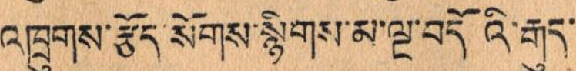འཁྲུགས་རྩོད་སོགས་སྙིགས་མ་ལྔ་བདོ འི་རྒུད་
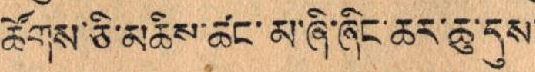ཚོགས་ཅི་མཆིས་ཚང་མ་ཞི་ཞིང་ཆར་ཆུ་དུས་
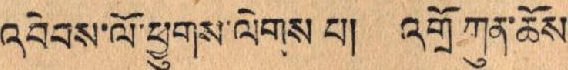འབེབས་ལོ་ཕྱུགས་ལེགས་པ། འགྲོ་ཀུན་ཆོས་
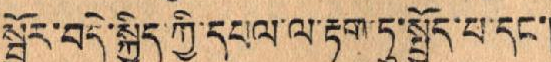སྦྱོར་བདེ་སྐྱིད་ཀྱི་དཔལ་ལ་རྟག་ཏུ་སྤྱོད་པ་དང་།
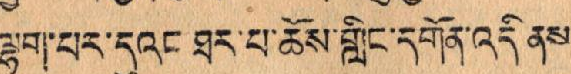ལྷག་པར་དུའང་ཐར་པ་ཆོས་གླིང་དགོན་འདི ནས་
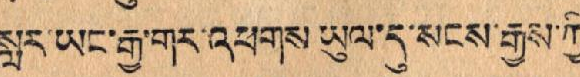སླར་ཡང་རྒྱ་གར་འཕགས་ཡུལ་དུ་སངས་རྒྱས་ཀྱི་
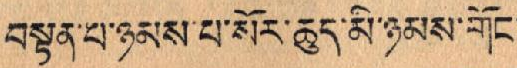བསྟན་པ་མཉམས་པ་སོར་ཆུད་མི་ཉམས་གོང་
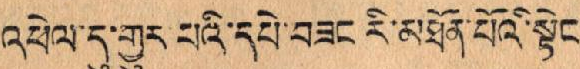འཕེལ་དུ་གྱུར་པའི་དཔེ་བཟང རི་མཐོན་པོའི་སྟེང་
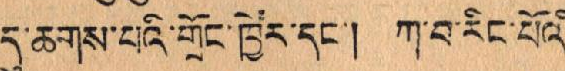དུ་ཆགས་པའི་གྲོང་ཁྱེར་དང་། ཀ་བ་རིང་པོའི་
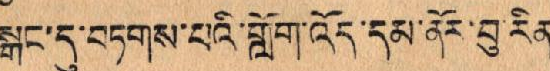སྒང་དུ་བཏགས་པའི་གློག་འོད་དམ་ནོར་བུ་རིན་
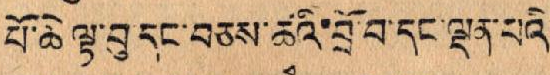པོ་ཆེ་ལྟ་བུ་དང་བཅས་ཚྭའི་བྲོ་བ་དང་ལྡན་པའི་
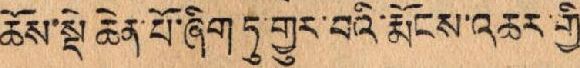ཆོས་སྡེ་ཆེན་པོ་ཞིག་ཏུ་གྱུར་བའི་རྨོངས་འཆར་གྱི་
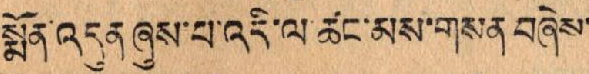སྨོན་འདུན་ཞུས་པ་འདི་ལ་ཚང་མས་གསན་བཞེས་
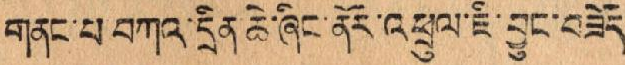གནང་པ་བཀའ་དྲིན་ཆེ་ཞིང་ནོར་འཕྲུལ་ཇི་བྱུང་བཟོད་
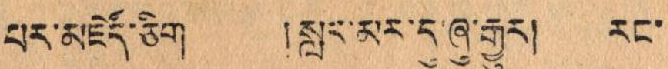པར་མཛོད་ཅིག །སླད་མར་དུ་ཞུ་རྒྱུར། རང་
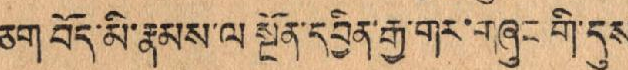ཅག བོད་མི་རྣམས་ལ་སྔོན་དབྱིན་རྒྱ་གར་གཞུང་གི་དུས་
